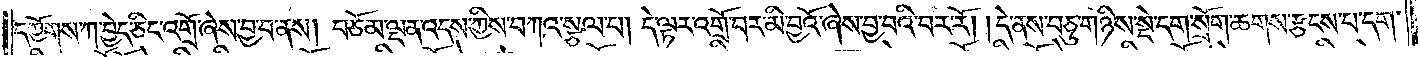དཀྱོགས་ཀ་བྱེད་ཅིང་འགྲོ་ཞེས་བྱ་བ་ནས། བཅོམ་ལྡན་འདས་ཀྱིས་བཀའ་སྩལ་པ། དེ་ལྟར་འགྲོ་བར་མི་བྱའོ་ཞེས་བྱ་བའི་བར་རོ། །དེ་ནས་བཅུ་གཉིས་སྡེ་དག་སྲོག་ཆགས་རྩངས་པ་དག་
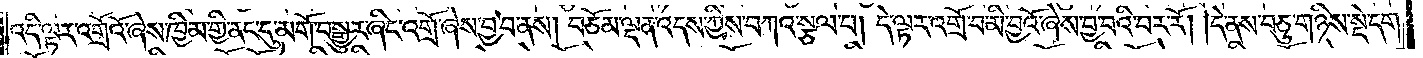འདི་ལྟར་འགྲོའོ་ཞེས་ཁྱིམ་གྱི་ནང་དུ་མགོ་བསྒྱུར་ཞིང་འགྲོ་ཞེས་བྱ་བ་ནས། བཅོམ་ལྡན་འདས་ཀྱིས་བཀའ་སྩལ་པ། དེ་ལྟར་འགྲོ་བ་མི་བྱའོ་ཞེས་བྱ་བའི་བར་རོ། །དེ་ནས་བཅུ་གཉིས་སྡེ་དག་
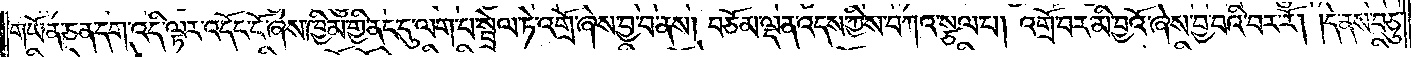གཡོན་ཅན་དག་འདི་ལྟར་འདོང་ངོ་ཞེས་ཁྱིམ་གྱི་ནང་དུ་ལག་པ་སྦྲེལ་ཏེ་འགྲོ་ཞེས་བྱ་བ་ནས། བཅོམ་ལྡན་འདས་ཀྱིས་བཀའ་སྩལ་པ། འགྲོ་བར་མི་བྱའོ་ཞེས་བྱ་བའི་བར་རོ། །དེ་ནས་བཅུ་
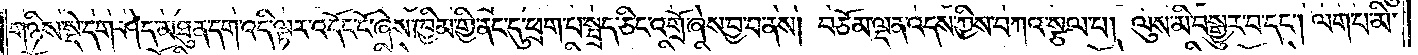གཉིས་སྡེ་དག་ཤེད་མཐུན་དག་འདི་ལྟར་འདོང་ངོ་ཞེས་ཁྱིམ་གྱི་ནང་དུ་ཕྲག་པ་སྤྲད་ཅིང་འགྲོ་ཞེས་བྱ་བ་ནས། བཅོམ་ལྡན་འདས་ཀྱིས་བཀའ་སྩལ་པ། ལུས་མི་བསྒྱུར་བ་དང༌། ལག་པ་མི་
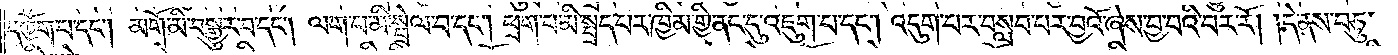དཀྱོག་པ་དང༌། མགོ་མི་བསྒྱུར་པ་དང༌། ལག་པ་མི་སྦྲེལ་བ་དང༌། ཕྲག་པ་མི་སྤྲད་པར་ཁྱིམ་གྱི་ནང་དུ་འཇུག་པ་དང༌། འདུག་པར་བསླབ་པར་བྱའོ་ཞེས་བྱ་བའི་བར་རོ། །དེ་ནས་བཅུ་
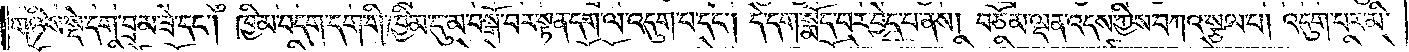གཉིས་སྡེ་དག་བྲམ་ཟེ་དང༌། ཁྱིམ་བདག་དག་གི་ཁྱིམ་དུ་མ་བསྒོ་བར་སྟན་དག་ལ་འདུག་པ་དང༌། དེ་དག་སྨོད་པར་བྱེད་པ་ནས། བཅོམ་ལྡན་འདས་ཀྱིས་བཀའ་སྩལ་པ། འདུག་པར་མི་
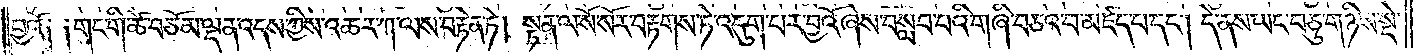བྱའོ༑ ༑གང་གི་ཚེ་བཅོམ་ལྡན་འདས་ཀྱིས་འཆར་ཀ་ལས་བརྟེན་ཏེ། སྟན་ལ་སོ་སོར་བརྟགས་ཏེ་འདུག་པར་བྱའོ་ཞེས་བསླབ་པའི་གཞི་བཅའ་བ་མཛད་པ་དང༌། དེ་ནས་ཡང་བཅུ་གཉིས་སྡེ་
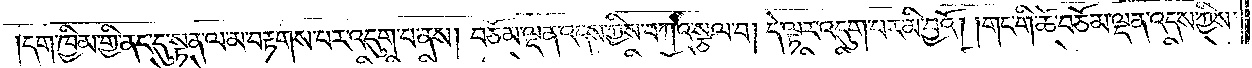།དག་ཁྱིམ་གྱི་ནང་དུ་སྟན་ལ་མ་བརྟགས་པར་འདུག་པ་ནས། བཅོམ་ལྡན་འདས་ཀྱིས་བཀའ་སྩལ་པ། དེ་ལྟར་འདུག་པར་མི་བྱའོ། །གང་གི་ཚེ་བཅོམ་ལྡན་འདས་ཀྱིས་
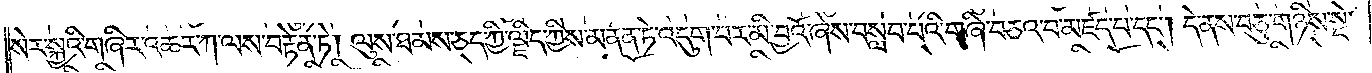སེར་སྐྱའི་གཞིར་འཆར་ཀ་ལས་བརྟེན་ཏེ། ལུས་ཐམས་ཅད་ཀྱི་ལྗིད་ཀྱིས་མནན་ཏེ་འདུག་པར་མི་བྱའོ་ཞེས་བསླབ་པའི་གཞི་བཅའ་བ་མཛད་པ་དང༌། དེ་ནས་བཅུ་གཉིས་སྡེ་
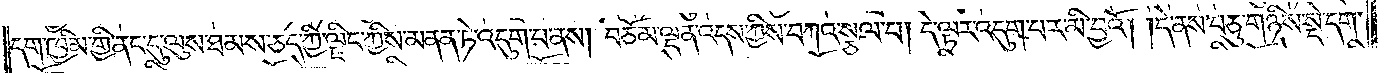དག་ཁྱིམ་གྱི་ནང་དུ་ལུས་ཐམས་ཅད་ཀྱི་ལྗིད་ཀྱིས་མནན་ཏེ་འདུག་པ་ནས། བཅོམ་ལྡན་འདས་ཀྱིས་བཀའ་སྩལ་པ། དེ་ལྟར་འདུག་པར་མི་བྱའོ། །དེ་ནས་བཅུ་གཉིས་སྡེ་དག་
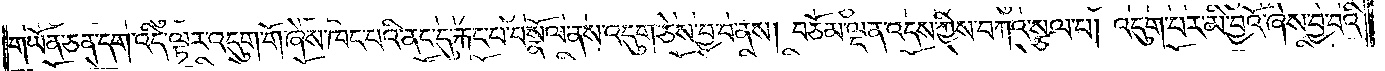གཡོན་ཅན་དག་འདི་ལྟར་འདུག་གོ་ཞེས་ཁང་པའི་ནང་དུ་རྐང་པ་བསྣོལ་ནས་འདུག་ཅེས་བྱ་བ་ནས། བཅོམ་ལྡན་འདས་ཀྱིས་བཀའ་སྩལ་པ། འདུག་པར་མི་བྱའོ་ཞེས་བྱ་བའི་
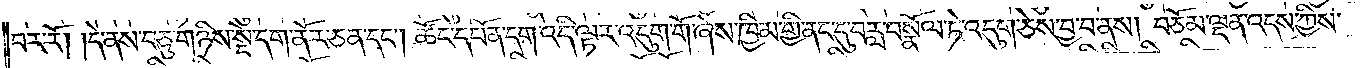བར་རོ། །དེ་ནས་བཅུ་གཉིས་སྡེ་དག་ནོར་ཅན་དང༌། ཚོང་དཔོན་དག་འདི་ལྟར་འདུག་གོ་ཞེས་ཁྱིམ་གྱི་ནང་དུ་བརླ་བསྣོལ་ཏེ་འདུག་ཅེས་བྱ་བ་ནས། བཅོམ་ལྡན་འདས་ཀྱིས་
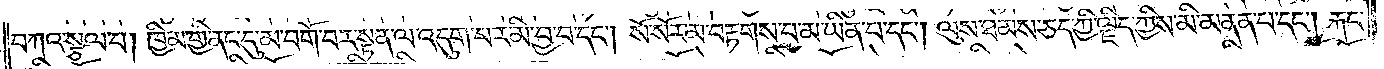བཀའ་སྩལ་པ། ཁྱིམ་གྱི་ནང་དུ་མ་བགོ་བར་སྟན་ལ་འདུག་པར་མི་བྱ་བ་དང༌། སོ་སོར་མ་བརྟགས་པ་མ་ཡིན་པ་དང༌། ལུས་ཐམས་ཅད་ཀྱི་ལྗིད་ཀྱིས་མི་མནན་པ་དང༌། རྐང་
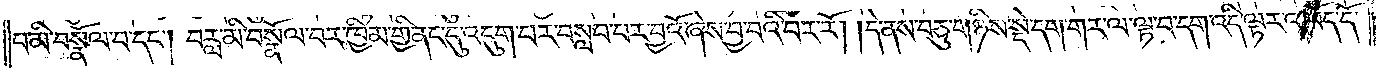པ་མི་བསྣོལ་བ་དང༌། བརླ་མི་བསྣོལ་བར་ཁྱིམ་གྱི་ནང་དུ་འདུག་པར་བསླབ་པར་བྱའོ་ཞེས་བྱ་བའི་བར་རོ། །དེ་ནས་བཅུ་གཉིས་སྡེ་དག་གར་ལ་ལྟ་བ་དག་འདི་ལྟར་འཁོད་དོ་
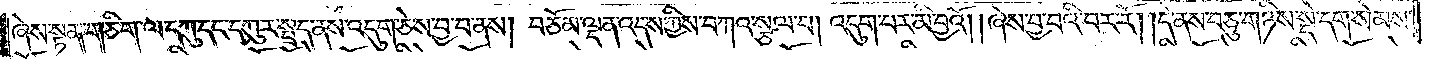ཞེས་སྟན་གཅིག་ལ་དཀུ་དང་དཀུར་སྤྲད་ནས་འདུག་ཅེས་བྱ་བ་ནས། བཅོམ་ལྡན་འདས་ཀྱིས་བཀའ་སྩལ་པ། འདུག་པར་མི་བྱའོ། །ཞེས་བྱ་བའི་བར་རོ། །དེ་ནས་བཅུ་གཉིས་སྡེ་དག་སེམས་
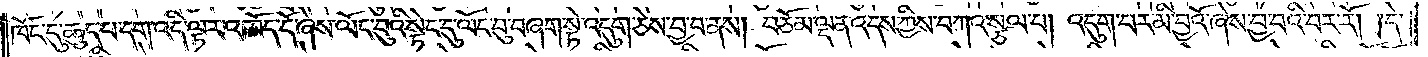ཁོང་དུ་ཆུད་པ་དག་འདི་ལྟར་འཁོད་དོ་ཞེས་ལོང་བུའི་སྟེང་དུ་ལོང་བུ་བཞག་སྟེ་འདུག་ཅེས་བྱ་བ་ནས། བཅོམ་ལྡན་འདས་ཀྱིས་བཀའ་སྩལ་པ། འདུག་པར་མི་བྱའོ་ཞེས་བྱ་བའི་བར་རོ། །དེ་
